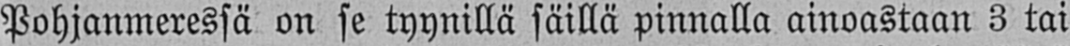Pohjanmeressä on se tyynillä säiliä pinnalla ainoastaan 3 tai
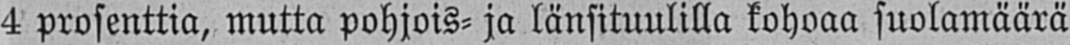4 prosenttia, mutta pohjois- ja länsituulilla kohoaa suolamäärä
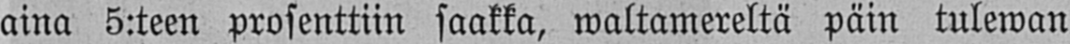aina 5:teen prosenttiin saakka, waltamereltä päin tulewan
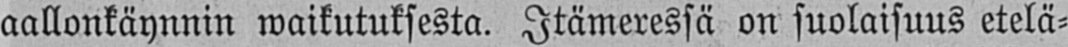aallonkäynnin waikutuksesta. Itämeressä on suolaisuus etelä-
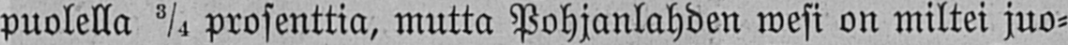puolella ¾ prosenttia, mutta Pohjanlahden wesi on miltei juo-
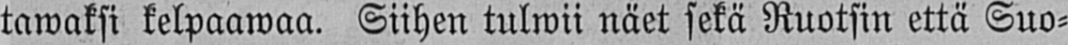tawaksi kelpaawaa. Siihen tulwii näet sekä Ruotsin että Suo-
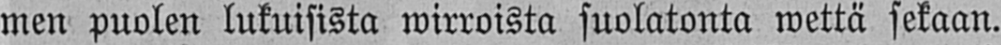men puolen lukuisista wirroista suolatonta wettä sekaan.
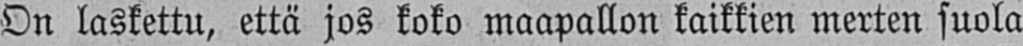On laskettu, että jos koko maapallon kaikkien merten suola
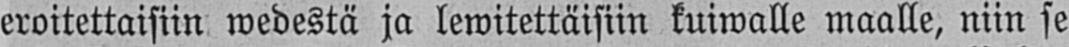eroitettaisiin wedestä ja lewitettäisiin kuiwalle maalle, niin se
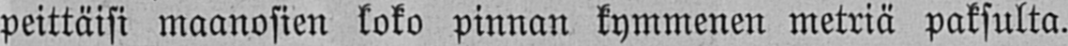peittäisi maanosien koko pinnan kymmenen metriä paksulta.
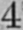4
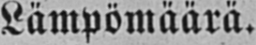Lämpömäärä.
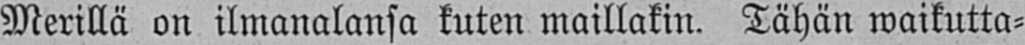Merillä on ilmanalansa kuten maillakin. Tähän waikutta-
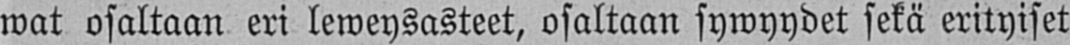wat osaltaan eri leweysasteet, osaltaan sywyydet sekä erityiset
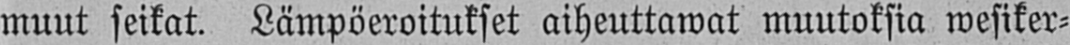muut seikat. Lämpöeroitukset aiheuttamat muutoksia mesiker-
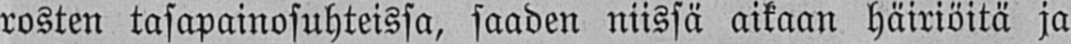rosten tasapainosuhteissa, saaden niissä aikaan häiriöitä ja
